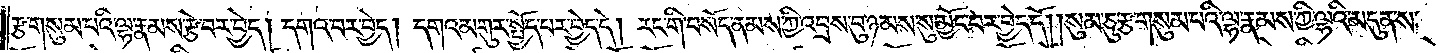རྩ་གསུམ་པའི་ལྷ་རྣམས་རྩེ་བར་བྱེད། དགའ་བར་བྱེད། དགའ་མགུར་སྤྱོད་པར་བྱེད་དེ། རང་གི་བསོད་ནམས་ཀྱི་འབྲས་བུ་ཉམས་སུ་མྱོང་བར་བྱེད་དོ། །སུམ་ཅུ་རྩ་གསུམ་པའི་ལྷ་རྣམས་ཀྱི་ལྷའི་མདུན་ས་
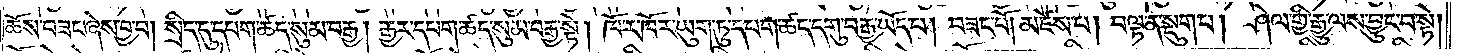ཆོས་བཟང་ཞེས་བྱ་བ། སྲིད་དུ་དཔག་ཚད་སུམ་བརྒྱ། རྒྱར་དཔག་ཚད་སུམ་བརྒྱ་སྟེ། ཁོ་ར་ཁོར་ཡུག་ཏུ་དཔག་ཚད་དགུ་བརྒྱ་ཡོད་པ། བཟང་པོ། མཛེས་པ། བལྟ་ན་སྡུག་པ། ཤེལ་གྱི་རྒྱུ་ལས་བྱུང་བ་སྟེ།
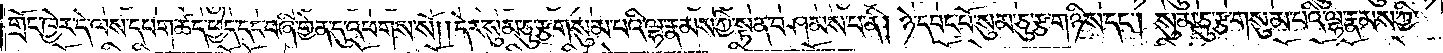གྲོང་ཁྱེར་དེ་ལས་དཔག་ཚད་དང་ཕྱེད་དང་བཞི་གྱེན་དུ་འཕགས་སོ། །དེར་སུམ་ཅུ་རྩ་གསུམ་པའི་ལྷ་རྣམས་ཀྱི་སྟན་བཤམས་པ་ནི། ཉེ་དབང་པོ་སུམ་ཅུ་རྩ་གཉིས་དང༌། སུམ་ཅུ་རྩ་གསུམ་པའི་ལྷ་རྣམས་ཀྱི་
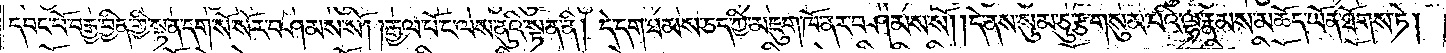དབང་པོ་བརྒྱ་བྱིན་གྱི་སྟན་དག་སོ་སོར་བཤམས་སོ། །རྒྱལ་པོ་ང་ལས་ནུའི་སྟན་ནི། དེ་དག་ཐམས་ཅད་ཀྱི་འཇུག་ཁོ་ནར་བཤམས་སོ། །དེ་ནས་སུམ་ཅུ་རྩ་གསུམ་པའི་ལྷ་རྣམས་མཆོད་ཡོན་ཐོགས་ཏེ།
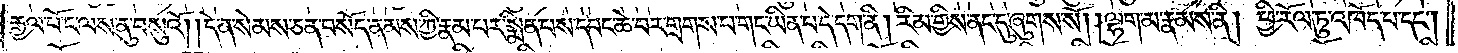རྒྱལ་པོ་ང་ལས་ནུ་བསུའོ། །དེ་ན་སེམས་ཅན་བསོད་ནམས་ཀྱི་རྣམ་པར་སྨིན་པས་དབང་ཆེ་བར་གྲགས་པ་གང་ཡིན་པ་དེ་དག་ནི། རིམ་གྱིས་ནང་དུ་ཞུགས་སོ། །ལྷག་མ་རྣམས་ནི། ཕྱི་རོལ་ཏུ་འཁོད་པ་དང༌།
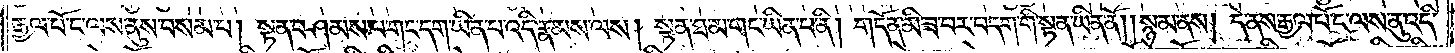རྒྱལ་པོ་ང་ལས་ནུས་བསམ་པ། སྟན་བཤམས་པ་གང་དག་ཡིན་པ་འདི་རྣམས་ལས། སྟན་ཐ་མ་གང་ཡིན་པ་ནི། གདོན་མི་ཟ་བར་བདག་གི་སྟན་ཡིན་ནོ། །སྙམ་ནས། དེ་ནས་རྒྱལ་པོ་ང་ལས་ནུ་འདི་
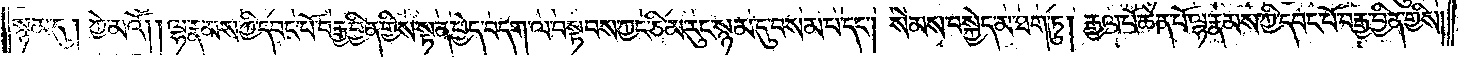སྙམ་དུ། ཀྱེ་མའོ། །ལྷ་རྣམས་ཀྱི་དབང་པོ་བརྒྱ་བྱིན་གྱིས་སྟན་ཕྱེད་བདག་ལ་བསྟབས་ཀྱང་ཅི་མ་རུང་སྙམ་དུ་བསམ་པ་དང༌། སེམས་བསྐྱེད་མ་ཐག་ཏུ། རྒྱལ་པོ་ཆེན་པོ་ལྷ་རྣམས་ཀྱི་དབང་པོ་བརྒྱ་བྱིན་གྱིས།
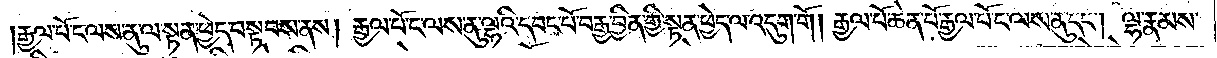རྒྱལ་པོ་ང་ལས་ནུ་ལ་སྟན་ཕྱེད་བསྟབས་ནས། རྒྱལ་པོ་ང་ལས་ནུ་ལྷའི་དབང་པོ་བརྒྱ་བྱིན་གྱི་སྟན་ཕྱེད་ལ་འདུག་གོ། རྒྱལ་པོ་ཆེན་པོ་རྒྱལ་པོ་ང་ལས་ནུ་དང༌། ལྷ་རྣམས་
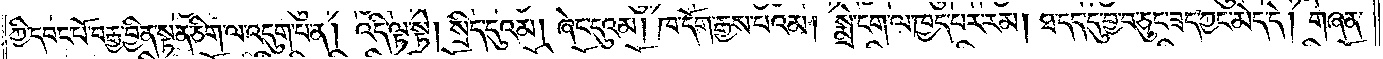ཀྱི་དབང་པོ་བརྒྱ་བྱིན་སྟན་ཅིག་ལ་འདུག་པ་ན། འདི་ལྟ་སྟེ། སྲིད་དུའམ། ཞེང་དུའམ། ཁ་དོག་རྒྱས་པའམ། སྨྲེ་ངག་ལ་ཁྱད་པར་རམ། ཐ་དད་དུ་བྱ་བ་ཅུང་ཟད་ཀྱང་མེད་དེ། གཞན་
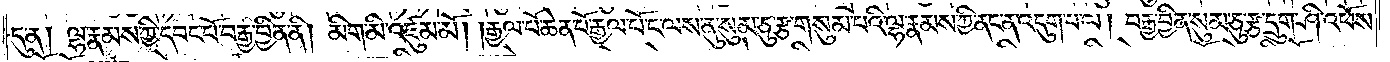དུ་ན། ལྷ་རྣམས་ཀྱི་དབང་པོ་བརྒྱ་བྱིན་ནི། མིག་མི་འཛུམ་མོ། །རྒྱལ་པོ་ཆེན་པོ་རྒྱལ་པོ་ང་ལས་ནུ་སུམ་ཅུ་རྩ་གསུམ་པའི་ལྷ་རྣམས་ཀྱི་ནང་ན་འདུག་པ་ལ། བརྒྱ་བྱིན་སུམ་ཅུ་རྩ་དྲུག་ཤི་འཕོས་
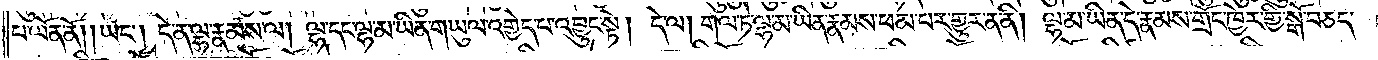པ་ལོན་ནོ། །ཡང༌། དེ་ན་ལྷ་རྣམས་ལ། ལྷ་དང་ལྷ་མ་ཡིན་གཡུལ་འགྱེད་པ་འབྱུང་སྟེ། དེ་ལ། གལ་ཏེ་ལྷ་མ་ཡིན་རྣམས་ཕམ་པར་གྱུར་ན་ནི། ལྷ་མ་ཡིན་དེ་རྣམས་གྲོང་ཁྱེར་གྱི་སྒོ་བཅད་
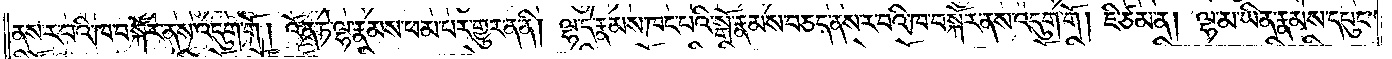ནས་ར་བའི་ཁ་བསྐོར་ནས་འདུག་གོ། འོན་ཏེ་ལྷ་རྣམས་ཕམ་པར་གྱུར་ན་ནི། ལྷ་དེ་རྣམས་ཁང་པའི་སྒོ་རྣམས་བཅད་ནས་ར་བའི་ཁ་བསྐོར་ནས་འདུག་གོ །  ཇི་ཙམ་ན། ལྷ་མ་ཡིན་རྣམས་དཔུང་
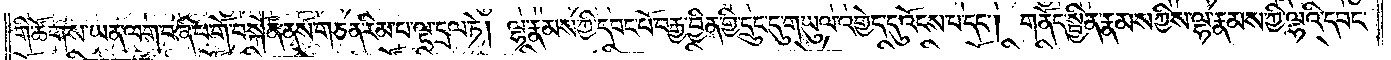གི་ཚོགས་ཡན་ལག་བཞི་པ་གོ་བསྐོན་ནས་གཅན་རིམ་པ་ལྔ་དྲལ་ཏེ། ལྷ་རྣམས་ཀྱི་དབང་པོ་བརྒྱ་བྱིན་གྱི་དྲུང་དུ་གཡུལ་འགྱེད་དུ་འོངས་པ་དང༌། གནོད་སྦྱིན་རྣམས་ཀྱིས་ལྷ་རྣམས་ཀྱི་ལྷའི་དབང་
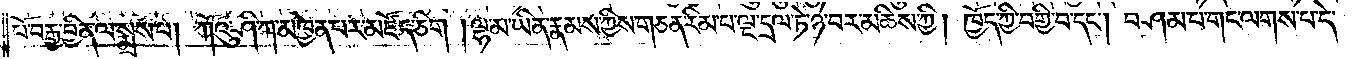པོ་བརྒྱ་བྱིན་ལ་སྨྲས་པ། ཀོའུ་ཤི་ཀ་མཁྱེན་པར་མཛོད་ཅིག །ལྷ་མ་ཡིན་རྣམས་ཀྱིས་གཅན་རིམ་པ་ལྔ་དྲལ་ཏེ་ཉེ་བར་མཆིས་ཀྱི། ཁྱོད་ཀྱི་བགྱི་བ་དང༌། བཤམ་པ་གང་ལགས་པ་དེ་
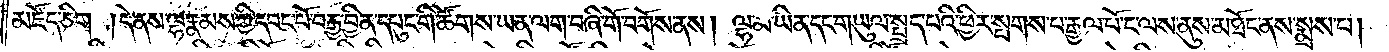མཛོད་ཅིག །དེ་ནས་ལྷ་རྣམས་ཀྱི་དབང་པོ་བརྒྱ་བྱིན་དཔུང་གི་ཚོགས་ཡན་ལག་བཞི་གོ་བགོས་ནས། ལྷ་མ་ཡིན་དང་གཡུལ་སྤྲད་པའི་ཕྱིར་སྤགས་པ་རྒྱལ་པོ་ང་ལས་ནུས་མཐོང་ནས་སྨྲས་པ།
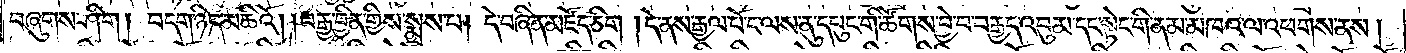བཞུགས་ཤིག །བདག་ཉིད་མཆིའོ། །བརྒྱ་བྱིན་གྱིས་སྨྲས་པ། དེ་བཞིན་མཛོད་ཅིག །དེ་ནས་རྒྱལ་པོ་ང་ལས་ནུ་དཔུང་གི་ཚོགས་བྱེ་བ་བརྒྱད་འབུམ་དང་སྟེང་གི་ནམ་མཁའ་ལ་འཕགས་ནས།
